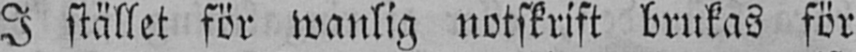I stället för wanlig notskrift brukas för
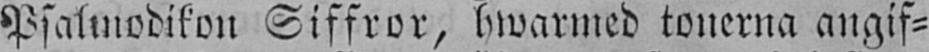Psalmodikon Siffror, hwarmed tonerna angif-
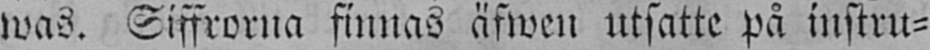was. Siffrorna finnas äfwen utsatte på instru-
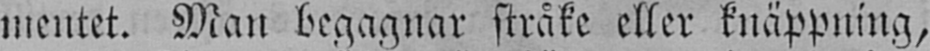mentet. Man begagnar stråke eller knäppning,
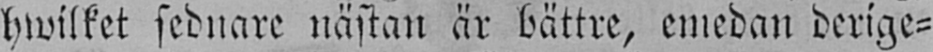hwilket sednare nästan är bättre, emedan derige-
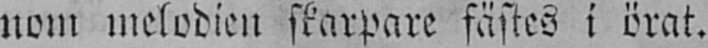nom melodien skarpare fästes i örat.
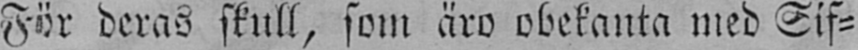För deras skull, som äro obekanta med Sif-
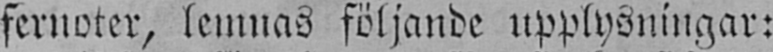fernoter, lemnas följande upplysningar:
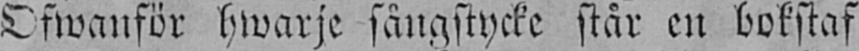Ofwanför hwarje sångstycke står en bokstaf
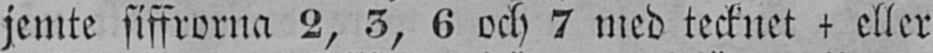jemte siffrorna 2, 3, 6 och 7 med tecknet + eller
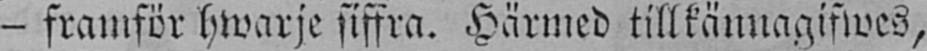- framför hwarje siffra. Härmed tillkännagifwes,
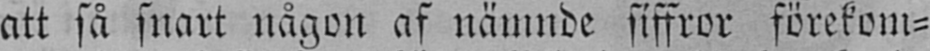att så snart någon af nämnde siffror förekom-
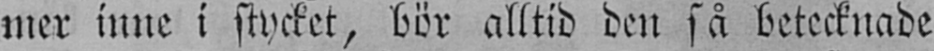mer inne i stycket, bör alltid den så betecknade
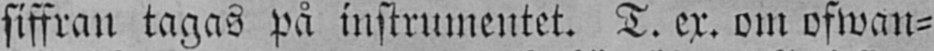siffran tagas på instrumentet. T. ex. om ofwan-
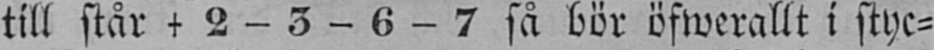till står + 2 - 3 - 6 - 7 så bör öfwerallt i styc-
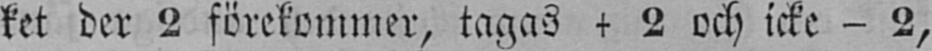ket der 2 förekommer, tagas + 2 och icke - 2,
